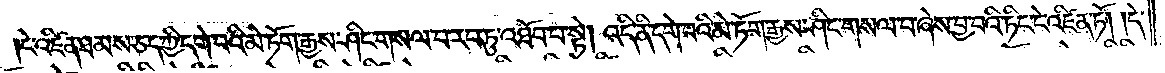ངེ་འཛིན་ཐམས་ཅད་ཀྱི་དགེ་བའི་མེ་ཏོག་རྒྱས་ཤིང་གསལ་བ་རབ་ཏུ་འཐོབ་པ་སྟེ། འདི་ནི་དགེ་བའི་མེ་ཏོག་རྒྱས་ཤིང་གསལ་བ་ཞེས་བྱ་བའི་ཏིང་ངེ་འཛིན་ཏོ། །དེ་
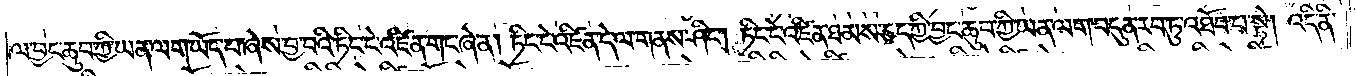ལ་བྱང་ཆུབ་ཀྱི་ཡན་ལག་ཡོད་པ་ཞེས་བྱ་བའི་ཏིང་ངེ་འཛིན་གང་ཞེ་ན། ཏིང་ངེ་འཛིན་དེ་ལ་གནས་ཤིང༌། ཏིང་ངེ་འཛིན་ཐམས་ཅད་ཀྱི་བྱང་ཆུབ་ཀྱི་ཡན་ལག་བདུན་རབ་ཏུ་འཐོབ་པ་སྟེ། འདི་ནི་
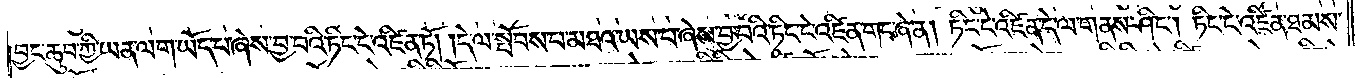བྱང་ཆུབ་ཀྱི་ཡན་ལག་ཡོད་པ་ཞེས་བྱ་བའི་ཏིང་ངེ་འཛིན་ཏོ། །དེ་ལ་སྤོབས་པ་མཐའ་ཡས་པ་ཞེས་བྱ་བའི་ཏིང་ངེ་འཛིན་གང་ཞེ་ན། ཏིང་ངེ་འཛིན་དེ་ལ་གནས་ཤིང༌། ཏིང་ངེ་འཛིན་ཐམས་
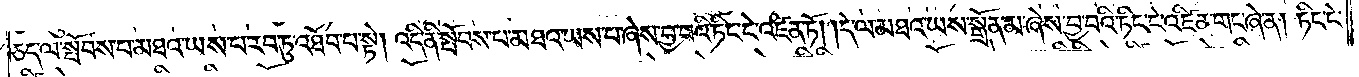ཅད་ལ་སྤོབས་པ་མཐའ་ཡས་པ་རབ་ཏུ་འཐོབ་པ་སྟེ། འདི་ནི་སྤོབས་པ་མཐའ་ཡས་པ་ཞེས་བྱ་བའི་ཏིང་ངེ་འཛིན་ཏོ། །དེ་ལ་མཐའ་ཡས་སྒྲོན་མ་ཞེས་བྱ་བའི་ཏིང་ངེ་འཛིན་གང་ཞེ་ན། ཏིང་ངེ་
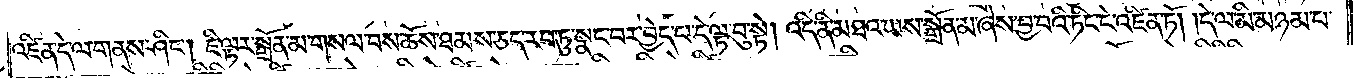འཛིན་དེ་ལ་གནས་ཤིང༌། ཇི་ལྟར་སྒྲོན་མ་གསལ་བས་ཆོས་ཐམས་ཅད་རབ་ཏུ་སྣང་བར་བྱེད་པ་དེ་ལྟ་བུ་སྟེ། འདི་ནི་མཐའ་ཡས་སྒྲོན་མ་ཞེས་བྱ་བའི་ཏིང་ངེ་འཛིན་ཏོ། །དེ་ལ་མི་མཉམ་པ་
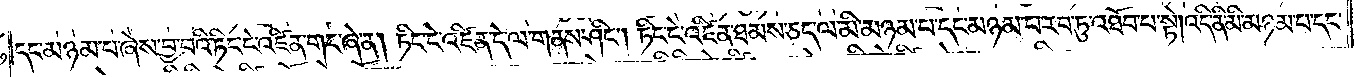དང་མཉམ་པ་ཞེས་བྱ་བའི་ཏིང་ངེ་འཛིན་གང་ཞེ་ན། ཏིང་ངེ་འཛིན་དེ་ལ་གནས་ཤིང༌། ཏིང་ངེ་འཛིན་ཐམས་ཅད་ལ་མི་མཉམ་པ་དང་མཉམ་པ་རབ་ཏུ་འཐོབ་པ་སྟེ། འདི་ནི་མི་མཉམ་པ་དང་
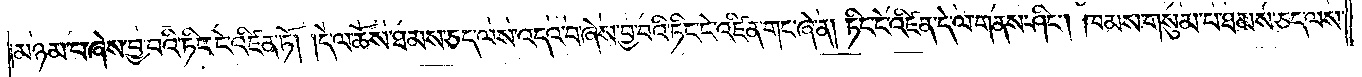མཉམ་པ་ཞེས་བྱ་བའི་ཏིང་ངེ་འཛིན་ཏོ། །དེ་ལ་ཆོས་ཐམས་ཅད་ལས་འདའ་བ་ཞེས་བྱ་བའི་ཏིང་ངེ་འཛིན་གང་ཞེ་ན། ཏིང་ངེ་འཛིན་དེ་ལ་གནས་ཤིང༌། ཁམས་གསུམ་པ་ཐམས་ཅད་ལས་
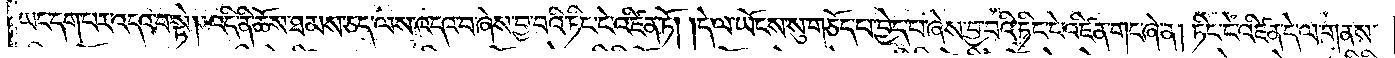ཡང་དག་པར་འདའ་བ་སྟེ། འདི་ནི་ཆོས་ཐམས་ཅད་ལས་འདའ་བ་ཞེས་བྱ་བའི་ཏིང་ངེ་འཛིན་ཏོ། །དེ་ལ་ཡོངས་སུ་གཅོད་པ་བྱེད་པ་ཞེས་བྱ་བའི་ཏིང་ངེ་འཛིན་གང་ཞེ་ན། ཏིང་ངེ་འཛིན་དེ་ལ་གནས་
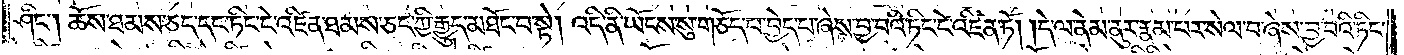ཤིང༌། ཆོས་ཐམས་ཅད་དང་ཏིང་ངེ་འཛིན་ཐམས་ཅད་ཀྱི་རྒྱུད་མཐོང་བ་སྟེ། འདི་ནི་ཡོངས་སུ་གཅོད་པ་བྱེད་པ་ཞེས་བྱ་བའི་ཏིང་ངེ་འཛིན་ཏོ། །དེ་ལ་ནེམ་ནུར་རྣམ་པར་སེལ་བ་ཞེས་བྱ་བའི་ཏིང་
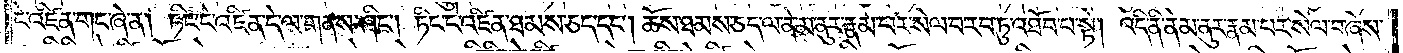ངེ་འཛིན་གང་ཞེ་ན། ཏིང་ངེ་འཛིན་དེ་ལ་གནས་ཤིང༌། ཏིང་ངེ་འཛིན་ཐམས་ཅད་དང༌། ཆོས་ཐམས་ཅད་ལ་ནེམ་ནུར་རྣམ་པར་སེལ་བ་རབ་ཏུ་འཐོབ་པ་སྟེ། འདི་ནི་ནེམ་ནུར་རྣམ་པར་སེལ་བ་ཞེས་
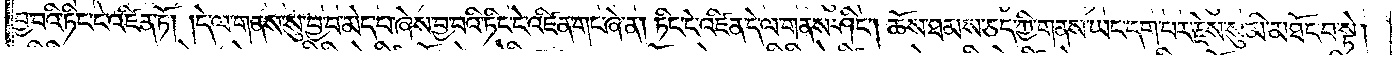བྱ་བའི་ཏིང་ངེ་འཛིན་ཏོ། །དེ་ལ་གནས་སུ་བྱ་བ་མེད་པ་ཞེས་བྱ་བའི་ཏིང་ངེ་འཛིན་གང་ཞེ་ན། ཏིང་ངེ་འཛིན་དེ་ལ་གནས་ཤིང༌། ཆོས་ཐམས་ཅད་ཀྱི་གནས་ཡང་དག་པར་རྗེས་སུ་མི་མཐོང་བ་སྟེ།
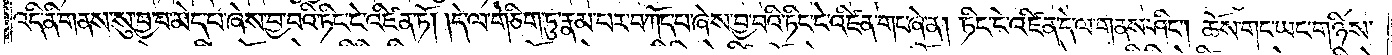འདི་ནི་གནས་སུ་བྱ་བ་མེད་པ་ཞེས་བྱ་བའི་ཏིང་ངེ་འཛིན་ཏོ། །དེ་ལ་གཅིག་ཏུ་རྣམ་པར་བཀོད་པ་ཞེས་བྱ་བའི་ཏིང་ངེ་འཛིན་གང་ཞེ་ན། ཏིང་ངེ་འཛིན་དེ་ལ་གནས་ཤིང༌། ཆོས་གང་ཡང་གཉིས་
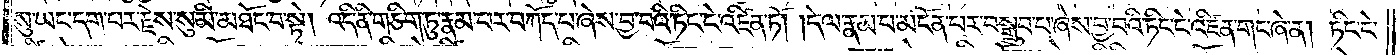སུ་ཡང་དག་པར་རྗེས་སུ་མི་མཐོང་བ་སྟེ། འདི་ནི་གཅིག་ཏུ་རྣམ་པར་བཀོད་པ་ཞེས་བྱ་བའི་ཏིང་ངེ་འཛིན་ཏོ། །དེ་ལ་རྣམ་པ་མངོན་པར་བསྒྲུབ་པ་ཞེས་བྱ་བའི་ཏིང་ངེ་འཛིན་གང་ཞེ་ན། ཏིང་ངེ་
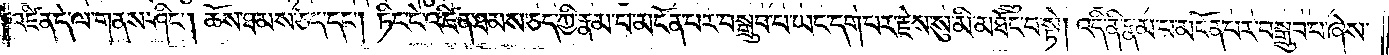འཛིན་དེ་ལ་གནས་ཤིང༌། ཆོས་ཐམས་ཅད་དང༌། ཏིང་ངེ་འཛིན་ཐམས་ཅད་ཀྱི་རྣམ་པ་མངོན་པར་བསྒྲུབ་པ་ཡང་དག་པར་རྗེས་སུ་མི་མཐོང་བ་སྟེ། འདི་ནི་རྣམ་པ་མངོན་པར་བསྒྲུབ་པ་ཞེས་
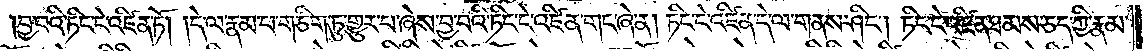བྱ་བའི་ཏིང་ངེ་འཛིན་ཏོ། །དེ་ལ་རྣམ་པ་གཅིག་ཏུ་གྱུར་པ་ཞེས་བྱ་བའི་ཏིང་ངེ་འཛིན་གང་ཞེ་ན། ཏིང་ངེ་འཛིན་དེ་ལ་གནས་ཤིང༌། ཏིང་ངེ་འཛིན་ཐམས་ཅད་ཀྱི་རྣམ་
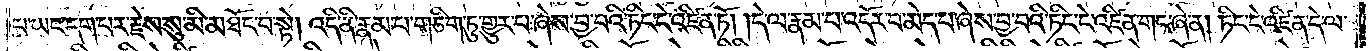པ་ཡང་དག་པར་རྗེས་སུ་མི་མཐོང་བ་སྟེ། འདི་ནི་རྣམ་པ་གཅིག་ཏུ་གྱུར་པ་ཞེས་བྱ་བའི་ཏིང་ངེ་འཛིན་ཏོ། །དེ་ལ་རྣམ་པ་འདོར་བ་མེད་པ་ཞེས་བྱ་བའི་ཏིང་ངེ་འཛིན་གང་ཞེ་ན། ཏིང་ངེ་འཛིན་དེ་ལ་
